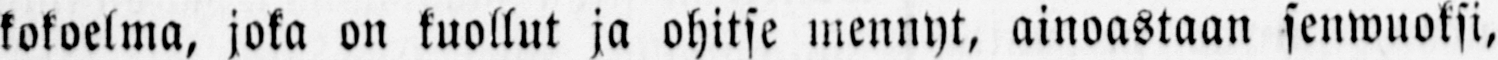kokoelma, joka on kuollut ja ohitse mennyt, ainoastaan senwuoksi,
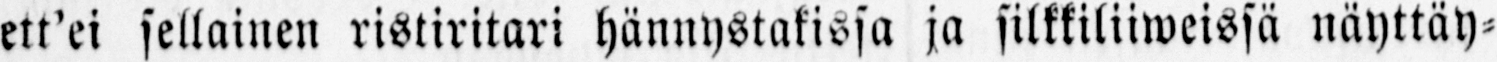ett’ei sellainen ristiritari hännystakissa ja silkkiliiweissä näyttäy-
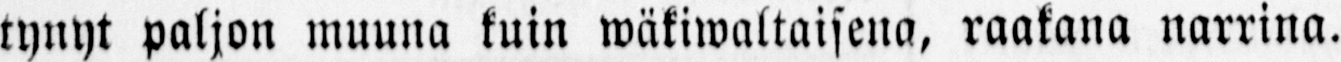tynyt paljon muuna kuin wäkiwaltaisena, raakana narrina.
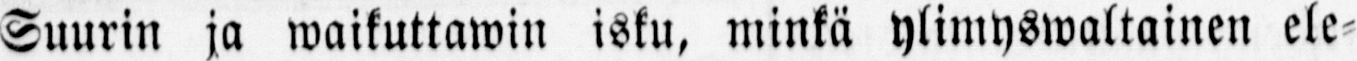Suurin ja waikuttawin isku, minkä ylimyswaltainen ele-
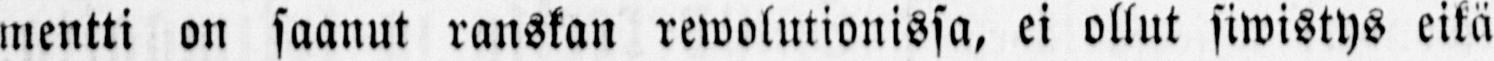mentti on saanut ranskan rewolutionissa, ei ollut siwistys eikä
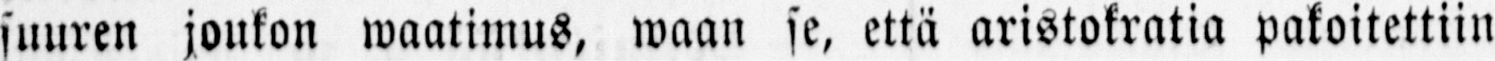suuren joukon waatimus, waan se, että aristokratia pakoitettiin
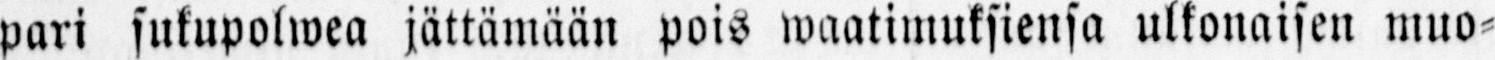pari sukupolwea jättämään pois waatimuksiensa ulkonaisen muo-
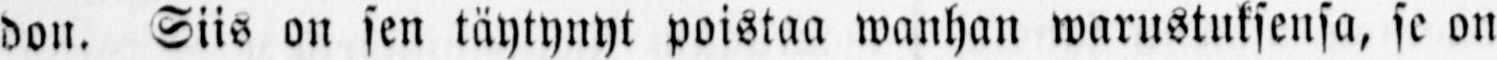don. Siis on sen täytynyt poistaa wanhan warustuksensa, se on
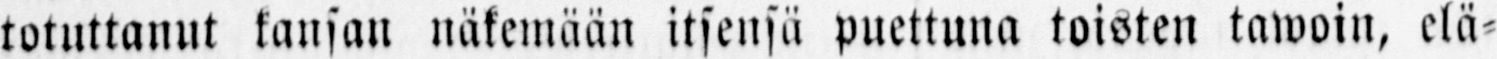totuttanut kansan näkemään itsensä puettuna toisten tawoin, elä-
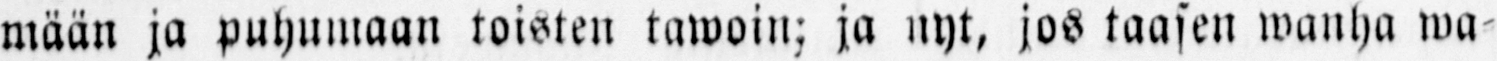mään ja puhumaan toisten tawoin; ja nyt, jos taasen wanha wa-
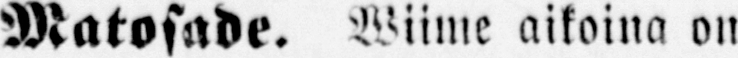— Matosade. Wiime aikoina on
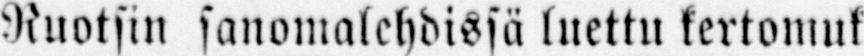Ruotsin sanomalehdissä luettu kertomuk-
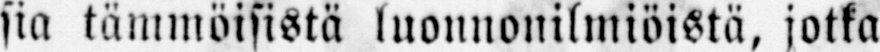sia tämmöisistä luonnonilmiöistä, jotka
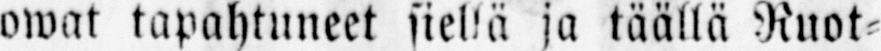owat tapahtuneet siellä ja täällä Ruot-
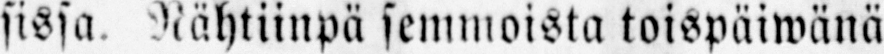sissa. Nähtiinpä semmoista toispäiwänä
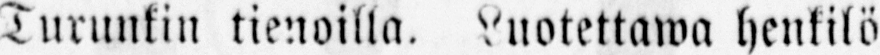Turunkin tienoilla. Luotettawa henkilö
